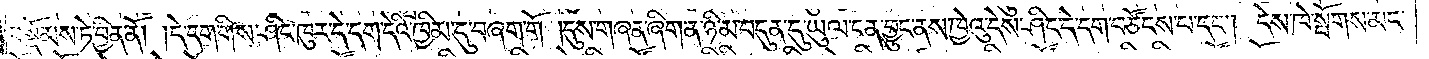བསྡོམས་ཏེ་བྱིན་ནོ། །དེ་དག་གིས་ཤིང་ཁུར་དེ་དག་དེའི་ཁྱིམ་དུ་བཞག་གོ །དུས་གཞན་ཞིག་ན་ཉི་མ་བདུན་དུ་ཡུལ་ངན་བྱུང་ནས་ཁྱེའུ་དེས་ཤིང་དེ་དག་བཙོངས་པ་དང༌། དེས་ཁེ་སྤོགས་མང་
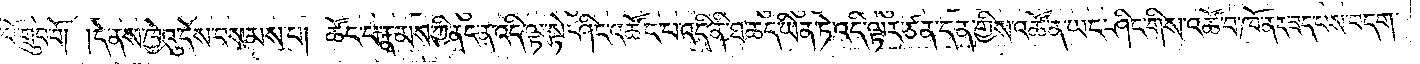པོ་གྲུབ་བོ། །དེ་ནས་ཁྱེའུ་དེས་བསམས་པ། ཚོང་པ་རྣམས་ཀྱི་ནང་ན་འདི་ལྟ་སྟེ་ཤིང་འཚོང་བ་འདི་ནི་ཐ་ཆད་ཡིན་ཏེ་འདི་ལྟར་ཙན་དན་གྱིས་འཚོ་ན་ཡང་ཤིང་གིས་འཚོ་བ་ཁོ་ནར་ཟད་པས་བདག་
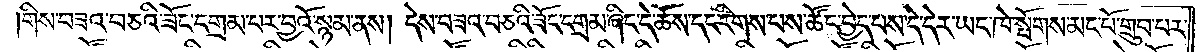གིས་བཟའ་བཅའི་ཟོང་དགྲམ་པར་བྱའོ་སྙམ་ནས། དེས་བཟའ་བཅའི་ཟོང་དགྲམ་ཞིང་དེ་ཆོས་དང་རིགས་པས་ཚོང་བྱེད་པས་དེ་དེར་ཡང་ཁེ་སྤོགས་མང་པོ་གྲུབ་པར་
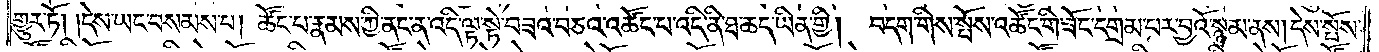གྱུར་ཏོ། །དེས་ཡང་བསམས་པ། ཚོང་པ་རྣམས་ཀྱི་ནང་ན་འདི་ལྟ་སྟེ་བཟའ་བཅའ་འཚོང་པ་འདི་ནི་ཐ་ཆད་ཡིན་གྱི། བདག་གིས་སྤོས་འཚོང་གི་ཟོང་དགྲམ་པར་བྱའོ་སྙམ་ནས། དེས་སྤོས་
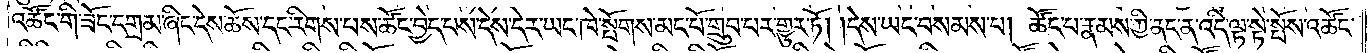འཚོང་གི་ཟོང་དགྲམ་ཞིང་དེས་ཆོས་དང་རིགས་པས་ཚོང་བྱེད་པས་དེས་དེར་ཡང་ཁེ་སྤོགས་མང་པོ་གྲུབ་པར་གྱུར་ཏོ། །དེས་ཡང་བསམས་པ། ཚོང་པ་རྣམས་ཀྱི་ནང་ན་འདི་ལྟ་སྟེ་སྤོས་འཚོང་
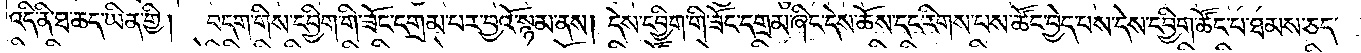འདི་ནི་ཐ་ཆད་ཡིན་གྱི། བདག་གིས་དབྱིག་གི་ཟོང་དགྲམ་པར་བྱའོ་སྙམ་ནས། དེས་དབྱིག་གི་ཟོང་དགྲམ་ཞིང་དེས་ཆོས་དང་རིགས་པས་ཚོང་བྱེད་པས་དེས་དབྱིག་ཚོང་པ་ཐམས་ཅད་
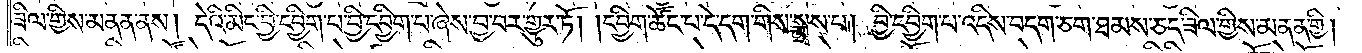ཟིལ་གྱིས་མནན་ནས། དེའི་མིང་བྱི་དབྱིག་པ་བྱི་དབྱིག་པ་ཞེས་བྱ་བར་གྱུར་ཏོ། །དབྱིག་ཚོང་པ་དེ་དག་གིས་སྨྲས་པ། བྱི་དབྱིག་པ་འདིས་བདག་ཅག་ཐམས་ཅད་ཟིལ་གྱིས་མནན་གྱི།
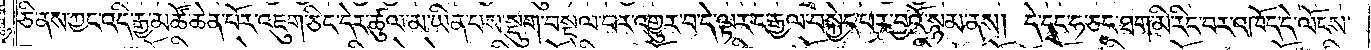ཅི་ནས་ཀྱང་འདི་རྒྱ་མཚོ་ཆེན་པོར་འཇུག་ཅིང་དེར་ཚུལ་མ་ཡིན་པས་སྡུག་བསྔལ་བར་འགྱུར་བ་དེ་ལྟར་ང་རྒྱལ་བསྐྱེད་པར་བྱའོ་སྙམ་ནས། དེ་དང་ཧ་ཅང་ཐག་མི་རིང་བར་འཁོད་དེ་ལོངས་
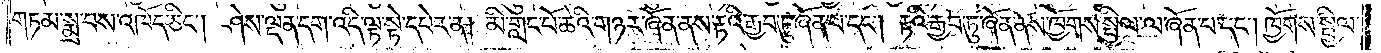གཏམ་སྨྲ་བས་འཁོད་ཅིང༌། ཤེས་ལྡན་དག་འདི་ལྟ་སྟེ་དཔེར་ན། མི་གླང་པོ་ཆེའི་གཉར་ཞོན་ནས་རྟའི་རྒྱབ་ཏུ་ཞོན་པ་དང༌། རྟའི་རྒྱབ་ཏུ་ཞོན་ནས་ཁྱོགས་སྤྱིལ་ལ་ཞོན་པ་དང༌། ཁྱོགས་སྤྱིལ་
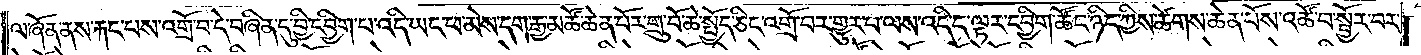ལ་ཞོན་ནས་རྐང་པས་འགྲོ་བ་དེ་བཞིན་དུ་བྱི་དབྱིག་པ་འདི་ཡང་ཕ་མེས་དག་རྒྱ་མཚོ་ཆེན་པོར་གྲུ་བོ་ཆེ་སྤྱོད་ཅིང་འགྲོ་བར་གྱུར་པ་ལས་འདི་ད་ལྟར་དབྱིག་ཚོང་ཉིད་ཀྱིས་ཚེགས་ཆེན་པོས་འཚོ་བ་སྦྱོར་བར་
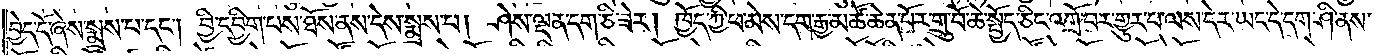བྱེད་དོ་ཞེས་སྨྲས་པ་དང༌། བྱི་དབྱིག་པས་ཐོས་ནས་དེས་སྨྲས་པ། ཤེས་ལྡན་དག་ཅི་ཟེར། ཁྱོད་ཀྱི་ཕ་མེས་དག་རྒྱ་མཚོ་ཆེན་པོར་གྲུ་བོ་ཆེ་སྤྱོད་ཅིང་འགྲོ་བར་གྱུར་བ་ལས་དེར་ཡང་དེ་དག་ཤི་ནས་
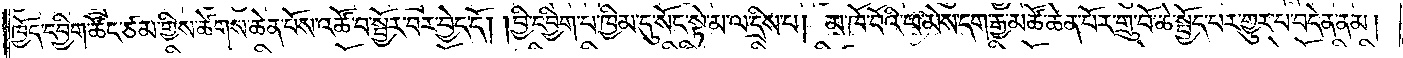ཁྱོད་དབྱིག་ཚོང་ཙམ་གྱིས་ཚེགས་ཆེན་པོས་འཚོ་བ་སྦྱོར་བར་བྱེད་དོ། །བྱི་དབྱིག་པ་ཁྱིམ་དུ་སོང་སྟེ་མ་ལ་དྲིས་པ། མ་ཁོ་བོའི་ཕ་མེས་དག་རྒྱ་མཚོ་ཆེན་པོར་གྲུ་བོ་ཆེ་སྤྱོད་པར་གྱུར་པ་བདེན་ནམ།
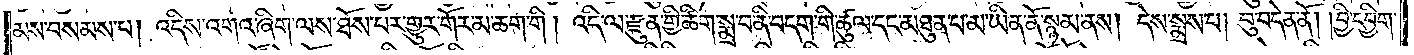མས་བསམས་པ། འདིས་འགའ་ཞིག་ལས་ཐོས་པར་གྱུར་གོར་མ་ཆག་གི །འདི་ལ་རྫུན་གྱི་ཚིག་སྨྲ་བ་ནི་བདག་གི་ཚུལ་དང་མཐུན་པ་མ་ཡིན་ནོ་སྙམ་ནས། དེས་སྨྲས་པ། བུ་བདེན་ནོ། །བྱི་དབྱིག་
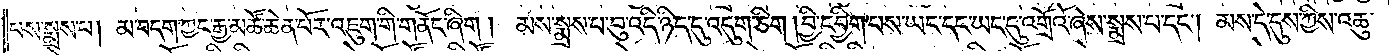པས་སྨྲས་པ། མ་བདག་ཀྱང་རྒྱ་མཚོ་ཆེན་པོར་འཇུག་གི་གནོང་ཞིག །མས་སྨྲས་པ་བུ་འདི་ཉིད་དུ་འདུག་ཅིག །བྱི་དབྱིག་པས་ཡང་དང་ཡང་དུ་འགྲོའོ་ཞེས་སྨྲས་པ་དང༌། མས་དེ་དུས་ཀྱིས་འཆུ་
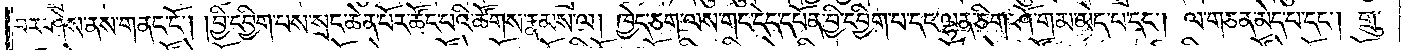བར་ཤེས་ནས་གནང་ངོ༌། བྱི་དབྱིག་པས་སྲང་ཆེན་པོར་ཚོང་པའི་ཚོགས་རྣམས་ལ། ཁྱེད་ཅག་ལས་གང་དེད་དཔོན་བྱི་དབྱིག་པ་དང་ལྷན་ཅིག་ཤོ་གམ་མེད་པ་དང༌། ལ་གཅན་མེད་པ་དང༌། གྲུ་
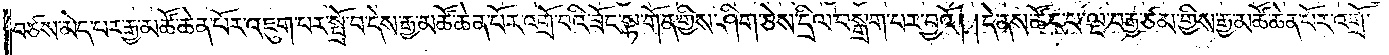བཙས་མེད་པར་རྒྱ་མཚོ་ཆེན་པོར་འཇུག་པར་སྤྲོ་བ་དེས་རྒྱ་མཚོ་ཆེན་པོར་འགྲོ་བའི་ཟོང་སྟ་གོན་གྱིས་ཤིག་ཅེས་དྲིལ་བསྒྲག་པར་བྱའོ། །དེ་ནས་ཚོང་པ་ལྔ་བརྒྱ་ཙམ་གྱིས་རྒྱ་མཚོ་ཆེན་པོར་འགྲོ་
